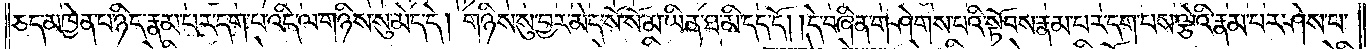ཅད་མཁྱེན་པ་ཉིད་རྣམ་པར་དག་པ་འདི་ལ་གཉིས་སུ་མེད་དེ། གཉིས་སུ་བྱར་མེད་སོ་སོ་མ་ཡིན་ཐ་མི་དད་དོ། །དེ་བཞིན་གཤེགས་པའི་སྟོབས་རྣམ་པར་དག་པས་ལྕེའི་རྣམ་པར་ཤེས་པ་
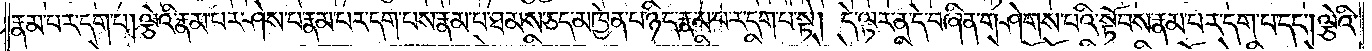རྣམ་པར་དག་པ་དང༌། ལྕེའི་རྣམ་པར་ཤེས་པ་རྣམ་པར་དག་པས་རྣམ་པ་ཐམས་ཅད་མཁྱེན་པ་ཉིད་རྣམ་པར་དག་པ་སྟེ། དེ་ལྟར་ན་དེ་བཞིན་གཤེགས་པའི་སྟོབས་རྣམ་པར་དག་པ་དང༌། ལྕེའི་
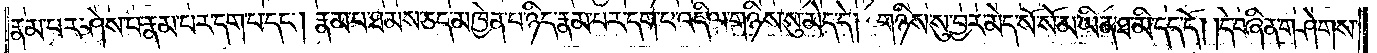རྣམ་པར་ཤེས་པ་རྣམ་པར་དག་པ་དང༌། རྣམ་པ་ཐམས་ཅད་མཁྱེན་པ་ཉིད་རྣམ་པར་དག་པ་འདི་ལ་གཉིས་སུ་མེད་དེ། གཉིས་སུ་བྱར་མེད་སོ་སོ་མ་ཡིན་ཐ་མི་དད་དོ། །དེ་བཞིན་གཤེགས་
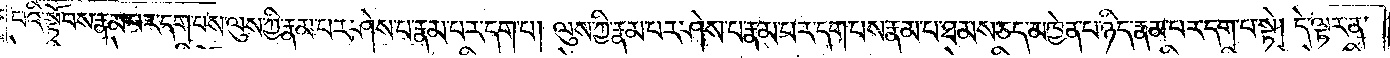པའི་སྟོབས་རྣམ་པར་དག་པས་ལུས་ཀྱི་རྣམ་པར་ཤེས་པ་རྣམ་པར་དག་པ། ལུས་ཀྱི་རྣམ་པར་ཤེས་པ་རྣམ་པར་དག་པས་རྣམ་པ་ཐམས་ཅད་མཁྱེན་པ་ཉིད་རྣམ་པར་དག་པ་སྟེ། དེ་ལྟར་ན་
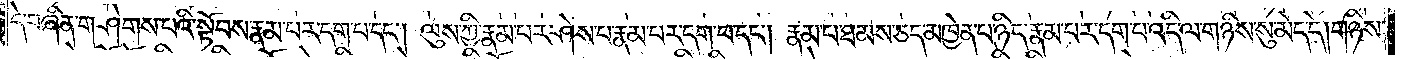དེ་བཞིན་གཤེགས་པའི་སྟོབས་རྣམ་པར་དག་པ་དང༌། ལུས་ཀྱི་རྣམ་པར་ཤེས་པ་རྣམ་པར་དག་པ་དང༌། རྣམ་པ་ཐམས་ཅད་མཁྱེན་པ་ཉིད་རྣམ་པར་དག་པ་འདི་ལ་གཉིས་སུ་མེད་དེ། གཉིས་
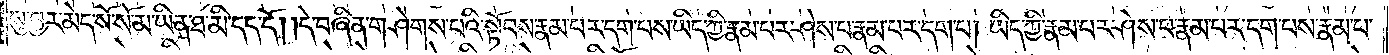སུ་བྱར་མེད་སོ་སོ་མ་ཡིན་ཐ་མི་དད་དོ། །དེ་བཞིན་གཤེགས་པའི་སྟོབས་རྣམ་པར་དག་པས་ཡིད་ཀྱི་རྣམ་པར་ཤེས་པ་རྣམ་པར་དག་པ། ཡིད་ཀྱི་རྣམ་པར་ཤེས་པ་རྣམ་པར་དག་པས་རྣམ་པ་
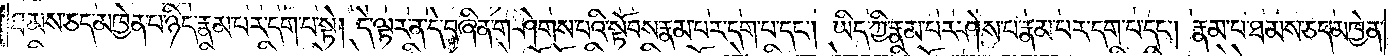ཐམས་ཅད་མཁྱེན་པ་ཉིད་རྣམ་པར་དག་པ་སྟེ། དེ་ལྟར་ན་དེ་བཞིན་གཤེགས་པའི་སྟོབས་རྣམ་པར་དག་པ་དང༌། ཡིད་ཀྱི་རྣམ་པར་ཤེས་པ་རྣམ་པར་དག་པ་དང༌། རྣམ་པ་ཐམས་ཅད་མཁྱེན་
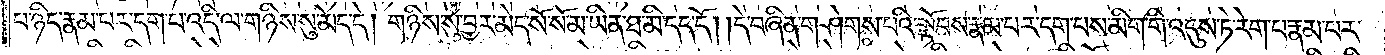པ་ཉིད་རྣམ་པར་དག་པ་འདི་ལ་གཉིས་སུ་མེད་དེ། གཉིས་སུ་བྱར་མེད་སོ་སོ་མ་ཡིན་ཐ་མི་དད་དོ། །དེ་བཞིན་གཤེགས་པའི་སྟོབས་རྣམ་པར་དག་པས་མིག་གི་འདུས་ཏེ་རེག་པ་རྣམ་པར་
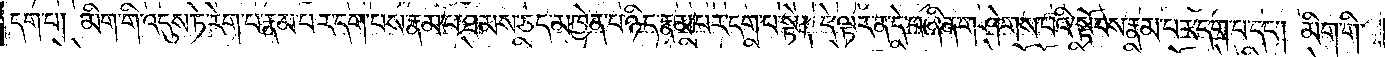དག་པ། མིག་གི་འདུས་ཏེ་རེག་པ་རྣམ་པར་དག་པས་རྣམ་པ་ཐམས་ཅད་མཁྱེན་པ་ཉིད་རྣམ་པར་དག་པ་སྟེ། དེ་ལྟར་ན་དེ་བཞིན་གཤེགས་པའི་སྟོབས་རྣམ་པར་དག་པ་དང༌། མིག་གི་
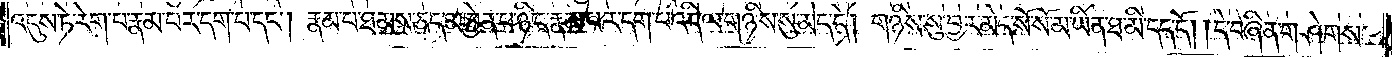འདུས་ཏེ་རེག་པ་རྣམ་པར་དག་པ་དང༌། རྣམ་པ་ཐམས་ཅད་མཁྱེན་པ་ཉིད་རྣམ་པར་དག་པ་འདི་ལ་གཉིས་སུ་མེད་དེ། གཉིས་སུ་བྱར་མེད་སོ་སོ་མ་ཡིན་ཐ་མི་དད་དོ། །དེ་བཞིན་གཤེགས་
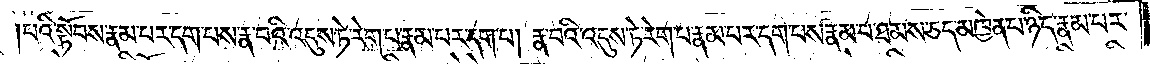པའི་སྟོབས་རྣམ་པར་དག་པས་རྣ་བའི་འདུས་ཏེ་རེག་པ་རྣམ་པར་དག་པ། རྣ་བའི་འདུས་ཏེ་རེག་པ་རྣམ་པར་དག་པས་རྣམ་པ་ཐམས་ཅད་མཁྱེན་པ་ཉིད་རྣམ་པར་
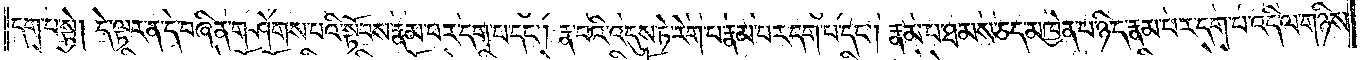དག་པ་སྟེ། དེ་ལྟར་ན་དེ་བཞིན་གཤེགས་པའི་སྟོབས་རྣམ་པར་དག་པ་དང༌། རྣ་བའི་འདུས་ཏེ་རེག་པ་རྣམ་པར་དག་པ་དང༌། རྣམ་པ་ཐམས་ཅད་མཁྱེན་པ་ཉིད་རྣམ་པར་དག་པ་འདི་ལ་གཉིས་
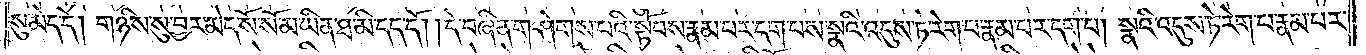སུ་མེད་དེ། གཉིས་སུ་བྱར་མེད་སོ་སོ་མ་ཡིན་ཐ་མི་དད་དོ། །དེ་བཞིན་གཤེགས་པའི་སྟོབས་རྣམ་པར་དག་པས་སྣའི་འདུས་ཏེ་རེག་པ་རྣམ་པར་དག་པ། སྣའི་འདུས་ཏེ་རེག་པ་རྣམ་པར་
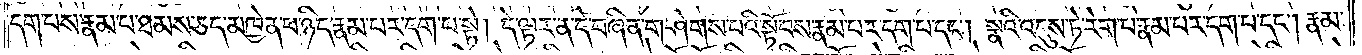དག་པས་རྣམ་པ་ཐམས་ཅད་མཁྱེན་པ་ཉིད་རྣམ་པར་དག་པ་སྟེ། དེ་ལྟར་ན་དེ་བཞིན་གཤེགས་པའི་སྟོབས་རྣམ་པར་དག་པ་དང༌། སྣའི་འདུས་ཏེ་རེག་པ་རྣམ་པར་དག་པ་དང༌། རྣམ་
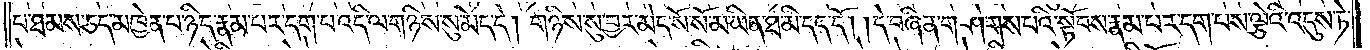པ་ཐམས་ཅད་མཁྱེན་པ་ཉིད་རྣམ་པར་དག་པ་འདི་ལ་གཉིས་སུ་མེད་དེ། གཉིས་སུ་བྱར་མེད་སོ་སོ་མ་ཡིན་ཐ་མི་དད་དོ། །དེ་བཞིན་གཤེགས་པའི་སྟོབས་རྣམ་པར་དག་པས་ལྕེའི་འདུས་ཏེ་
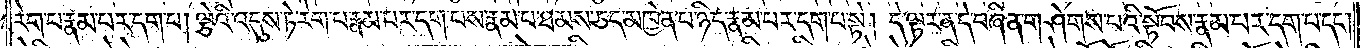རེག་པ་རྣམ་པར་དག་པ། ལྕེའི་འདུས་ཏེ་རེག་པ་རྣམ་པར་དག་པས་རྣམ་པ་ཐམས་ཅད་མཁྱེན་པ་ཉིད་རྣམ་པར་དག་པ་སྟེ། དེ་ལྟར་ན་དེ་བཞིན་གཤེགས་པའི་སྟོབས་རྣམ་པར་དག་པ་དང༌།
